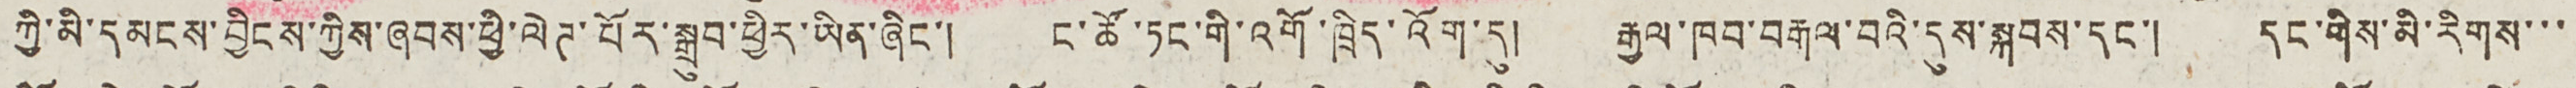ཀྱི་མི་དམངས་བྱིངས་ཀྱིས་ཞབས་ཕྱི་ལེཊ་པོར་སྒྲུབ་ཕྱིར་ཡིན་ཞིང་། ང་ཚོ་ཏང་གི་འགོ་ཁྲིད་འོག་དུ། རྒྱལ་ཁབ་བརྒལ་བའི་དུས་སྐབས་དང་། དང་གིས་མི་རིགས་་་
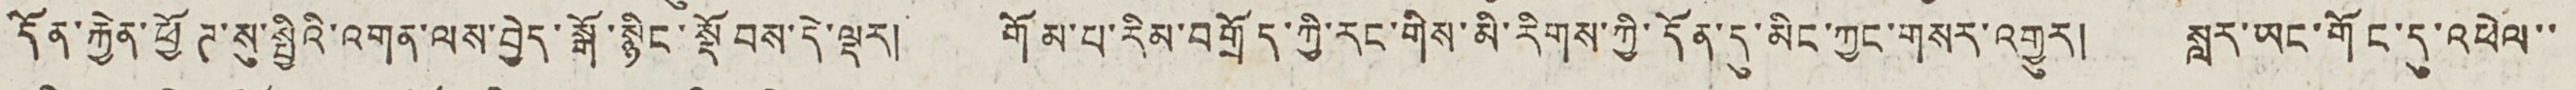དོན་རྐྱེན་ཕྱོཊ་སུ་སྤྱིའི་འགན་ལས་བྱེད་སྒོ་སྙིང་སྡོབས་དེ་ལྡར། གོམ་པ་རིམ་བགྲོད་ཀྱི་རང་གིས་མི་རིགས་ཀྱི་དོན་དུ་མིང་ཀྱང་གསར་འགྱུར། སླར་ཡང་གོང་དུ་འཕེལ་་
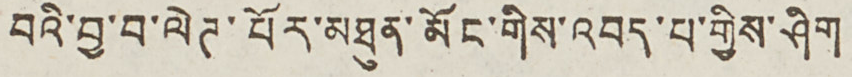བའི་བྱ་བ་ལེཊ་པོར་མཐུན་མོང་གིས་འབད་པ་གྱིས་ཤིག
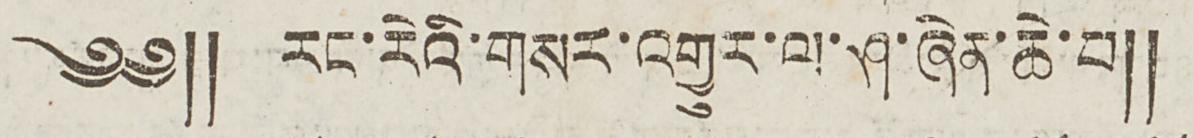༄༅༎ རང་རེའི་གསར་འགྱུར་ལ་ཤ་ཞེན་ཆེ་བ༎
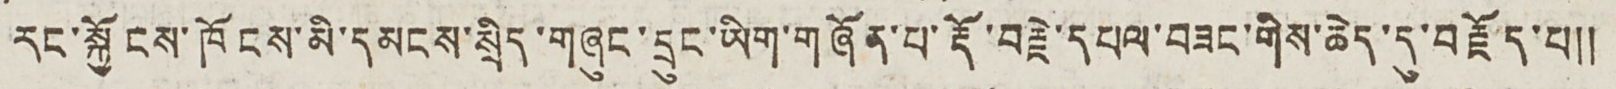རང་སྐྱོངས་ཁོངས་མི་དམངས་སྲིད་གཞུང་དྲུང་ཡིག་གཞོན་པ་རྡོ་བརྗེ་དཔལ་བཟང་གིས་ཆེད་དུ་བརྗོད་པ༎
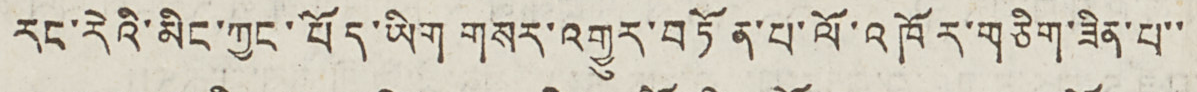རང་རེའི་མིང་ཀྱང་པོད་ཡིག གསར་འགྱུར་བཏོན་པ་ལོ་འཁོར་གཅིག་ཟིན་པ་་
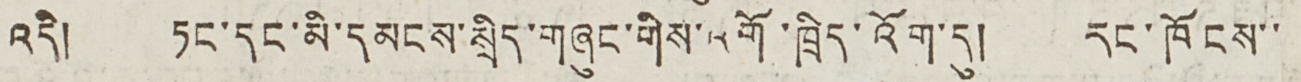འདི། ཏང་དང་མི་དམངས་སྲིད་གཞུང་གིས་འགོ་ཁྲིད་འོག་དུ། རང་ཁོངས་་
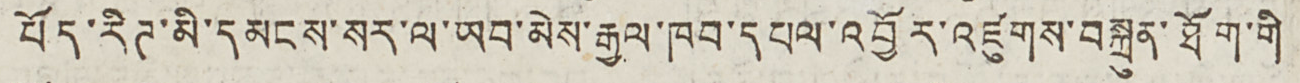པོད་རིཊ་མི་དམངས་སར་ལ་ཡབ་མེས་རྒྱལ་ཁབ་དཔལ་འབྱོར་འཛུགས་བསྐྲུན་ཐོག་གི
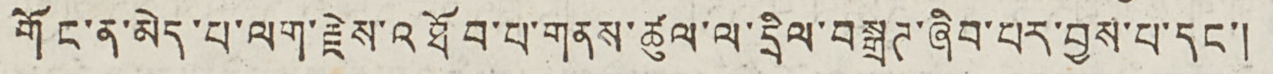གོང་ན་མེད་པ་ལག་རྗེས་འཐོབ་པ་གནས་ཚུལ་ལ་དྲོལ་བསྒྲཊ་ཞིབ་པར་བྱས་པ་དང་།
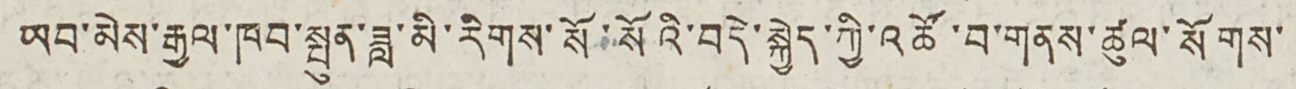ཡབ་མེས་རྒྱལ་ཁབ་སྤུན་ཟླ་མི་རིགས་སོ་སོའི་བདེ་སྐྱེད་ཀྱི་འཚོ་བ་གནས་ཚུལ་སོགས་
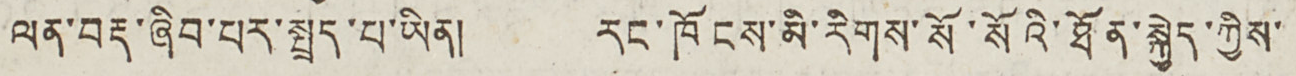ལན་བརྡ་ཞིབ་པར་སྤྲད་པ་ཡིན། རང་ཁོངས་མི་རིགས་སོ་སོའི་ཐོན་སྐྱེད་ཀྱིས་
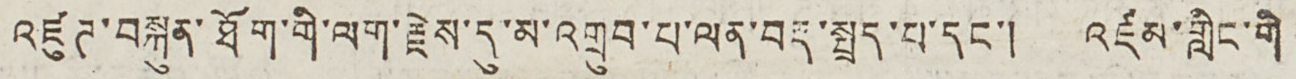འཛུཊ་བསྐྲུན་ཐོག་གི་ལག་རྗེས་དུ་མ་འགྲུབ་པ་ལན་བརྡ་སྤྲད་པ་དང་། འཛམ་གླིང་གི
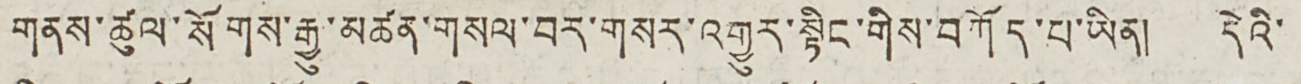གནས་ཚུལ་སོགས་རྒྱུ་མཚན་གསལ་བར་གསར་འགྱུར་སྟིང་གིས་བཀོད་པ་ཡིན། དེའི་
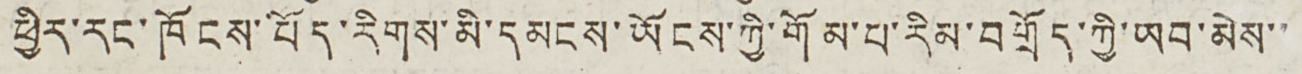ཕྱིར་རང་ཁོངས་བོད་རིགས་མི་དམངས་ཡོངས་ཀྱི་གོམ་པ་རིམ་བགྲོད་ཀྱི་ཡབ་མེས་་
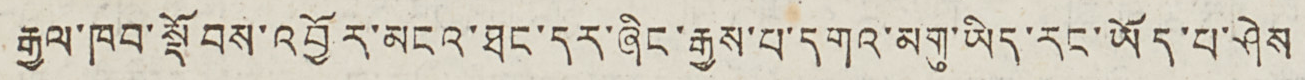རྒྱལ་ཁབ་སྡོབས་འབྱོར་མངའ་ཐང་དར་ཞིང་རྒྱས་པ་དགའ་མགུ་ཡིད་རང་ཡོད་པ་ཤེས
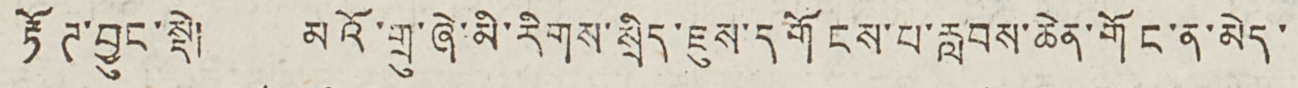རྟོཊ་བྱུང་སྡེ། མའོ་གྲུ་ཞེ་མི་རིགས་སྲིད་ཇུས་དགོངས་པ་རླབས་ཆེན་གོང་ན་མེད་
